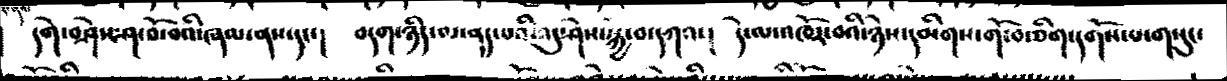དགེ་བཤེས་ཤ་བོ་བའི་ཞམ་ནས་དང་།  བདག་ཉིད་ལ་ནད་པའི་འདུ་ཤེས་སྐྱེ་བ་དཀའ་།  དེ་ལ་འཁོར་བའི་ཉེས་དམིགས་གོ་བ་ཅིག་དགོས་པ་གསུང་
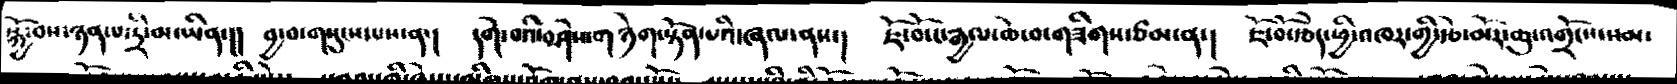སྐྱོ་བས་ཉན་པ་དྲི་མ་ཡིན་།།  བྱ་བ་གསུངས་པས་ན་།  དགེ་བའི་བཤེས་གཉེག་སྟོན་པའི་ཞལ་ནས་།  ཇོ་བོ་ང་རྒྱལ་ཆེ་བ་གཟིགས་ཙམ་ན་།  ཇོ་བོ་རྩད་ཕྱི་འཁར་གྱི་རྩེ་མོར་ཆུ་འགྲོངས་སམ་
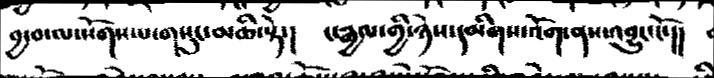བྱ་བ་ལ་སོགས་པ་གསུང་མཆི་སྟེ་།  ང་རྒྱལ་གྱི་ཉེས་དམིགས་འོག་ནས་འབྱུང་ངོ་།།
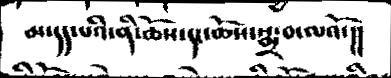མ་དད་པའི་ནི་ཆོས་དང་ཆོས་སྨྲ་བ་ལའོ་།།
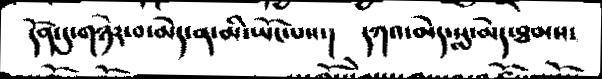དོན་དུ་གཉེར་བ་མེད་ན་མི་ཡོང་པས་།  དཀའ་མེད་སླ་མེད་ཐམས་
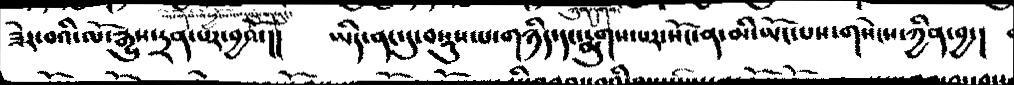ཟེར་བའི་ལོ་རྒྱུས་དྲན་པར་བྱའོ་།།  ཡིད་ནང་དུ་བསྡུས་པ་གཉིད་དང་རྨུགས་པར་སོང་ན་མི་ཡོང་པས་གསེངས་ཀྱིན་བྱ་།
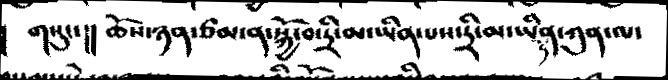གསུང་།། ཆོས་ཉན་ཙམ་ན་སྐྱོ་བ་དྲི་མ་ཡིན་པས་དྲི་མ་ཡིན་ཏེ་ཀུན་ལ་
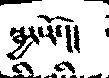སྦྱར་རོ་།།
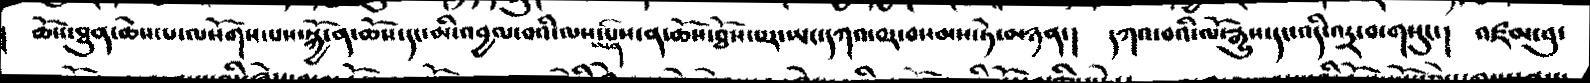།  ཆོས་ཐུན་ཆེས་པ་ལསོགས་པས་སྐྱོ་ན་ཆོས་དང་མི་འབྱལ་བའི་ལས་ཡིན་པས་ན་ཆོས་ཐོས་པར་ཡང་དཀའ་བར་བསམས་ཏེ་མཉན་།  དཀའ་བའི་ལོ་རྒྱུས་དང་འདི་འདྲ་བ་གསུང་།  འཛམ་བུ་
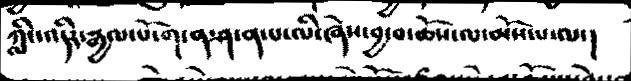ཀླིང་འདིར་རྒྱལ་པོ་ག་ན་ཤ་ན་པ་ལི་ཞེས་བྱ་བ་ཆོས་ལ་མོས་པ་ལ་།
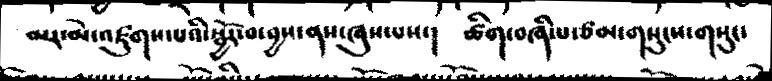མར་མེ་འཛུགས་པའི་སྦྱོར་བ་བྱས་ནས་ཞུས་པས་།  ཚིག་བཞི་པ་ཙམ་གསུངས་གསུང་
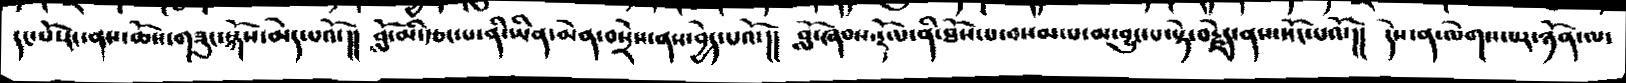དང་པོ་ངར་ནས་ཆོས་གཟུང་སྐོས་མེད་པའོ་།།  བློ་མི་དཅང་པ་ནི་ཡིན་མེན་བསྲེས་ནས་བྱེད་པའོ་།།  བློ་ཞབས་རྡོ་པ་ནི་ཐོས་པ་བསམ་པ་མ་བྱུང་པ་སྟེ་བརྗེད་ནས་སོང་པའོ་།།  དེས་ན་ལེགས་པར་ཉོན་ལ་
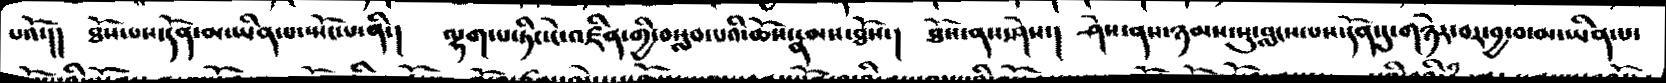པའོ་།།  ཐོས་པས་དོན་མ་ཡིན་པ་སྤོངས་པ་ནི་།  ལྷག་པ་ཏིང་ངེ་འཛིན་གྱི་བསླབ་པའི་ཆོས་རྣམས་ཐོས་།  ཐོས་ནས་ཤེས་།  ཤེས་ནས་ཉམས་སུ་བླངས་པས་དོན་དུ་གཉེར་བར་བྱ་བ་མ་ཡིན་པ་
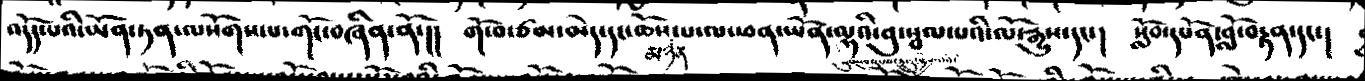འདོད་པའི་ཡོན་ཏན་ལསོགས་པ་གོང་བཞིན་ནོ་།།  གོ་བ་ཙམ་མེད་དང་ཆོས་མཉན་པ་ལ་ཕན་ཡོན་ལྷའི་བུ་སྦལ་པའི་ལོ་རྒྱུས་དང་།  སློབ་དཔོན་བློ་བརྟན་དང་།
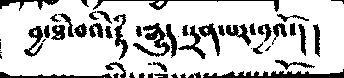བྱ་ཐི་བའི་རྟཾ་རྒྱུད་དྲན་པར་བྱའོ་།།
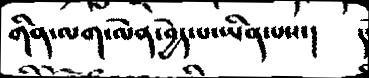གིན་ལག་ལེན་བྱེད་པ་ཡིན་པས་།
